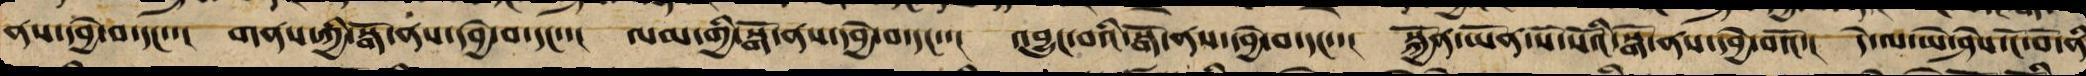ནས་དབྱེ་བ་དང་་། གནས་ཀྱི་སྒོ་ནས་དབྱེ་བ་དང་་། ལམ་གྱི་སྒོ་ནས་དབྱེ་བ་དང་་། འབྱུང་བའི་སྒོ་ནས་དབྱེ་བ་དང་་། སྐྱོན་ཡོན་སོ་སོའི་སྒོ་ནས་དབྱེ་བའོ་། དེ་ལ་ཡེ་ཤེས་ངོ་བོ་ནི
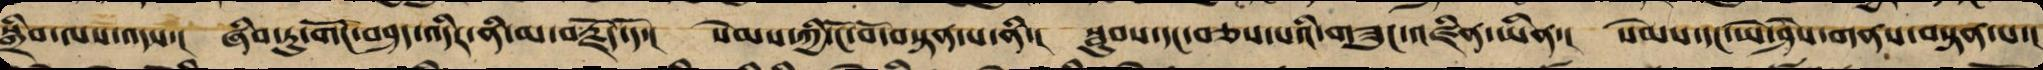སྒྲིབ་ལས་འདས་། ཞིབ་ཏུ་གོང་བཤད་འདིར་ནི་མ་བརྗོད་དོ་། སེམས་ཀྱི་ངོ་བོ་བསྟན་པ་ནི་། སྦུབས་དང་བཅས་པའི་གཟུང་འཛིན་ཡིན་། སེམས་དང་ཡེ་ཤེས་གནས་བསྟན་པ་།
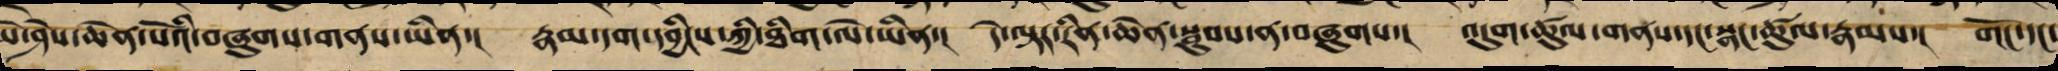ཡེ་ཤེས་ཆེན་པོའི་བཞུགས་གནས་ཡིན་། རྣམ་དག་དབྱིངས་ཀྱི་ཐིག་ལེ་ཡིན་། དེ་ལྟར་རིན་ཆེན་སྦུབས་ན་བཞུགས་། འདུག་ཚུལ་གནས་དང་སྣང་ཚུལ་རྣམས་། གོང་དང་
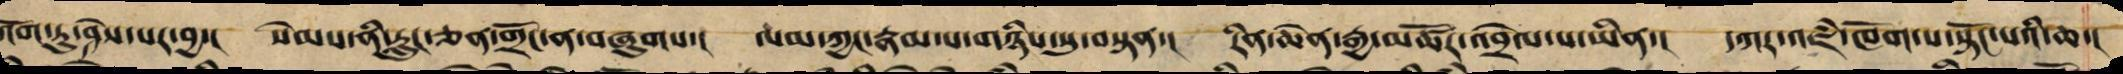འོག་ཏུ་ཤེས་པར་བྱ་། སེམས་ནི་རླུང་ཅན་གྲོང་ན་བཞུགས་། ལམ་ཀྱང་རྣམ་པ་གཉིས་སུ་བསྟན་། རིན་ཆེན་རྒྱ་མཚོར་འབྲེལ་པ་ཡིན་། དཀར་འཇཾ་ཁོག་པ་སྟོང་པའི་ཆ་།
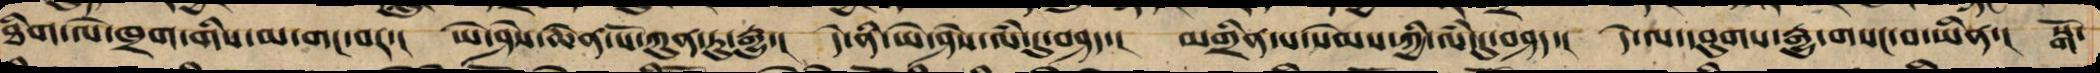ཐིག་ལེ་ཁྲག་གིས་མ་གང་བར་། ཡེ་ཤེས་ཆེན་པོ་ཀུན་ཏུ་རྒྱུ་། དེ་ནི་ཡེ་ཤེས་ལཾ་དུ་བཤད་། མགྲིན་པ་སེམས་ཀྱི་ལཾ་དུ་བཤད་། དེ་ལ་དབུགས་རྒྱུ་གསང་བ་ཡིན་། སྒོ་
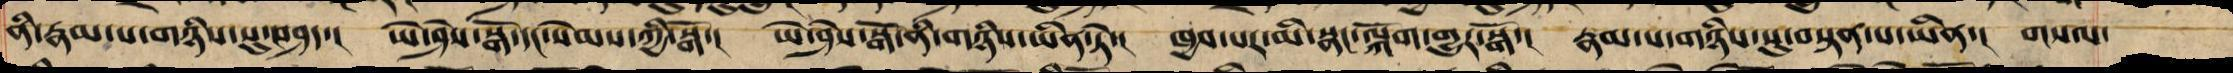ནི་རྣམ་པ་གཉིས་སུ་བཤད་། ཡེ་ཤེས་སྒོ་དང་སེམས་ཀྱི་སྒོ་། ཡེ་ཤེས་སྒོ་ནི་གཉིས་ཡིན་ཏེ་། ཁྱབ་པར་མི་སྣང་ལྐོག་གྱུར་སྒོ་། རྣམ་པ་གཉིས་སུ་བསྟན་པ་ཡིན་། གསལ་
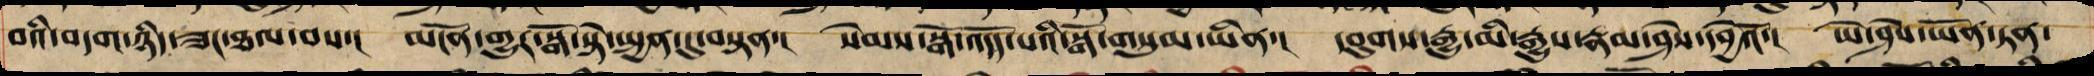བའི་བདག་ཉིད་ཟང་ཐལ་བས་། མངོན་གྱུར་སྒོ་སྟེ་སྤྱན་དུ་བསྟན་། སེམས་སྒོ་འདོད་པའི་སྒོ་གསུམ་ཡིན་། དབུགས་རྒྱུ་མི་རྒྱུས་རྣམ་ཤེས་དབྱེའོ་། ཡེ་ཤེས་ཡོན་ཏན་
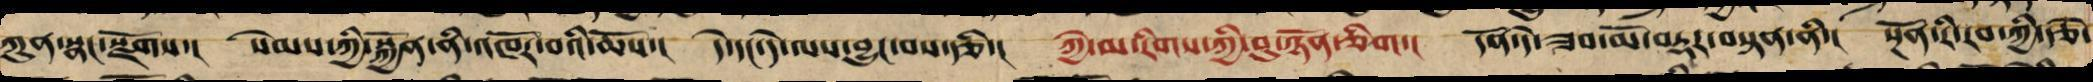ཀུན་སྣང་སྫོགས་། སེམས་ཀྱི་སྐྱོན་ནི་འཁོར་བའི་ཆོས་། དེ་དང་དེ་ལས་བྱུང་བའི་རྩི་། ཀྱེ་མ་རིགས་ཀྱི་བུ་ཉོན་ཅིག་། དོན་དེ་ཟབ་མོ་བརྡར་བསྟན་ནི་། སྔོན་རི་རབ་ཀྱི་རྩེ་
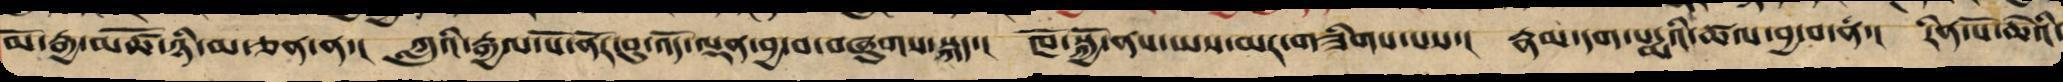མོ་རྒྱ་མཚོ་ཉི་མ་ཅན་ན་། ཀླུའི་རྒྱལ་པོ་ནོར་བུ་འོད་ལྡན་བྱ་བ་བཞུགས་སྐད་། ཁོ་སྐྱོ་ནས་ཡས་མར་གཟིགས་པས་། རྣམ་དག་པདྨའི་ཚལ་བྱ་བ་ན་། རིན་པོ་ཆེའི་
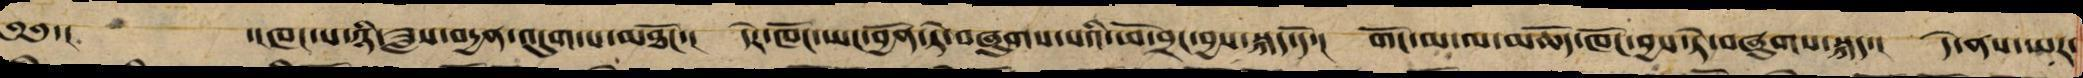༄༅་། ་།ཁང་པ་ཉི་ཟླས་བདྱན་འདུག་པ་མཐོང་། དེར་ཁོང་ཡར་བྱོན་ཏེ་བཞུགས་པའི་ཕོ་བྲང་བྱས་སྐད་དོ་། གོང་མ་ལ་མཆོད་ཁང་བྱས་ཏེ་བཞུགས་སྐད་། དེ་ནས་ཡར་
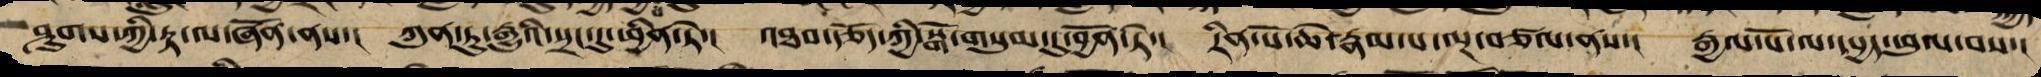ཤུགས་ཀྱི་རྟ་ལ་ཞོན་ནས་། ཀུན་ཏུ་རྒྱུའི་སྲང་དུ་ཕྱིན་ཏེ་། འཐབ་རྩོད་ཀྱི་སྒོ་གསུམ་དུ་བྱོན་ཏེ་། རིན་པོ་ཆེ་རྣམ་པ་ལྔ་བཙལ་ནས་། རྒྱལ་པོ་ལ་དཔྱད་ཕུལ་བས་།
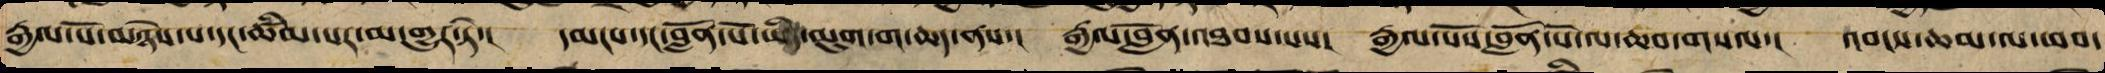རྒྱལ་པོ་མཉེས་པ་དང་ཚིམ་པར་མ་གྱུར་ཏེ་། དམངས་དང་བློན་པོ་ཡིད་མུག་ག་ཆད་ནས་། རྒྱལ་བློན་འཐབ་པས་། རྒྱལ་པོས་བློན་པོ་ལ་ཆབ་གསལ་། འབངས་ཆམ་ལ་ཕབ་
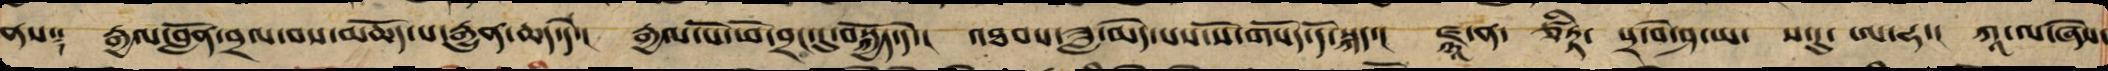ནས༑ རྒྱལ་བློན་བྲལ་བས་མཆོད་པ་རྒྱུན་ཆད་དེ་། རྒྱལ་པོ་ཕོ་བྲང་དུ་བསྐྱོད་དེ་། འཐབས་ཟླ་མེད་པས་སོ་བསོད་དོ་སྐད་། ཛྙཱ་ན་ ཙིཏྟ་ པྲ་བེ་ཤ་ཡ་ ས་དུ་ ཨ་ཧ་ ཀཱ་ལ་ཞེས་
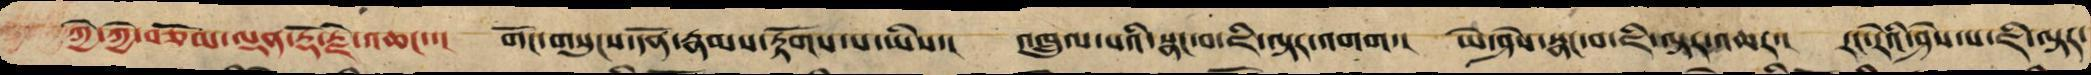ཀྱེ་ཀྱེ་བཅོམ་ལྡན་རྡོ་རྗེ་འཆང་་། གོང་གསུངས་དོན་རྣམས་རྟོགས་པ་ཡིས་། འཁྲུལ་པའི་སྣང་བ་ཇི་ལྟར་འགག་། ཡེ་ཤེས་སྣང་བ་ཇི་ལྟར་འཆར་། རང་རིའི་ཤེས་པ་ཇི་ལྟར་
